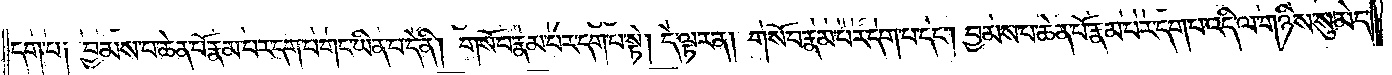དག་པ། བྱམས་པ་ཆེན་པོ་རྣམ་པར་དག་པ་གང་ཡིན་པ་དེ་ནི། གསོ་བ་རྣམ་པར་དག་པ་སྟེ། དེ་ལྟར་ན། གསོ་བ་རྣམ་པར་དག་པ་དང༌། བྱམས་པ་ཆེན་པོ་རྣམ་པར་དག་པ་འདི་ལ་གཉིས་སུ་མེད་
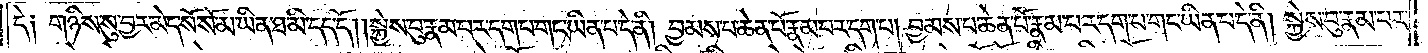དེ༑ གཉིས་སུ་བྱར་མེད་སོ་སོ་མ་ཡིན་ཐ་མི་དད་དོ། །སྐྱེས་བུ་རྣམ་པར་དག་པ་གང་ཡིན་པ་དེ་ནི། བྱམས་པ་ཆེན་པོ་རྣམ་པར་དག་པ། བྱམས་པ་ཆེན་པོ་རྣམ་པར་དག་པ་གང་ཡིན་པ་དེ་ནི། སྐྱེས་བུ་རྣམ་པར་
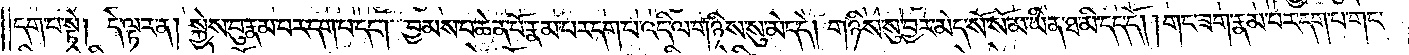དག་པ་སྟེ། དེ་ལྟར་ན། སྐྱེས་བུ་རྣམ་པར་དག་པ་དང༌། བྱམས་པ་ཆེན་པོ་རྣམ་པར་དག་པ་འདི་ལ་གཉིས་སུ་མེད་དེ། གཉིས་སུ་བྱར་མེད་སོ་སོ་མ་ཡིན་ཐ་མི་དད་དོ། །གང་ཟག་རྣམ་པར་དག་པ་གང་
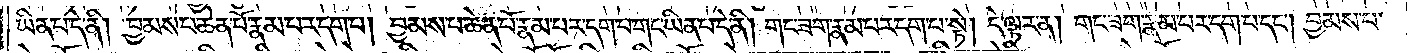ཡིན་པ་དེ་ནི། བྱམས་པ་ཆེན་པོ་རྣམ་པར་དག་པ། བྱམས་པ་ཆེན་པོ་རྣམ་པར་དག་པ་གང་ཡིན་པ་དེ་ནི། གང་ཟག་རྣམ་པར་དག་པ་སྟེ། དེ་ལྟར་ན། གང་ཟག་རྣམ་པར་དག་པ་དང༌། བྱམས་པ་
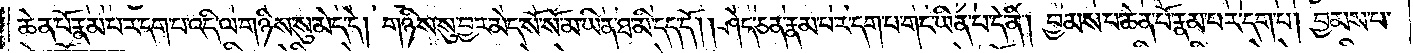ཆེན་པོ་རྣམ་པར་དག་པ་འདི་ལ་གཉིས་སུ་མེད་དེ། གཉིས་སུ་བྱར་མེད་སོ་སོ་མ་ཡིན་ཐ་མི་དད་དོ། །ཤེད་ཅན་རྣམ་པར་དག་པ་གང་ཡིན་པ་དེ་ནི། བྱམས་པ་ཆེན་པོ་རྣམ་པར་དག་པ། བྱམས་པ་
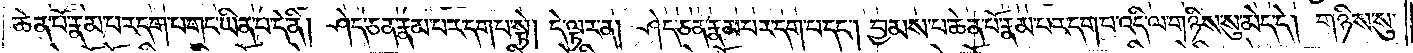ཆེན་པོ་རྣམ་པར་དག་པ་གང་ཡིན་པ་དེ་ནི། ཤེད་ཅན་རྣམ་པར་དག་པ་སྟེ། དེ་ལྟར་ན། ཤེད་ཅན་རྣམ་པར་དག་པ་དང༌། བྱམས་པ་ཆེན་པོ་རྣམ་པར་དག་པ་འདི་ལ་གཉིས་སུ་མེད་དེ། གཉིས་སུ་
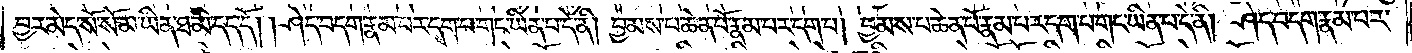བྱར་མེད་སོ་སོ་མ་ཡིན་ཐ་མི་དད་དོ། །ཤེད་བདག་རྣམ་པར་དག་པ་གང་ཡིན་པ་དེ་ནི། བྱམས་པ་ཆེན་པོ་རྣམ་པར་དག་པ། བྱམས་པ་ཆེན་པོ་རྣམ་པར་དག་པ་གང་ཡིན་པ་དེ་ནི། ཤེད་བདག་རྣམ་པར་
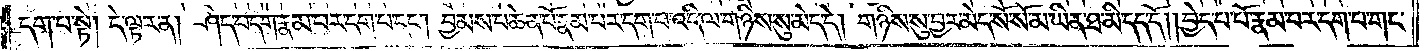དག་པ་སྟེ། དེ་ལྟར་ན། ཤེད་བདག་རྣམ་པར་དག་པ་དང༌། བྱམས་པ་ཆེན་པོ་རྣམ་པར་དག་པ་འདི་ལ་གཉིས་སུ་མེད་དེ། གཉིས་སུ་བྱར་མེད་སོ་སོ་མ་ཡིན་ཐ་མི་དད་དོ། །བྱེད་པ་པོ་རྣམ་པར་དག་པ་གང་
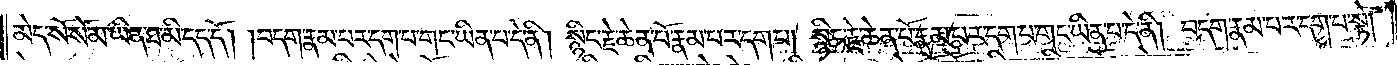མེད་སོ་སོ་མ་ཡིན་ཐ་མི་དད་དོ། །བདག་རྣམ་པར་དག་པ་གང་ཡིན་པ་དེ་ནི། སྙིང་རྗེ་ཆེན་པོ་རྣམ་པར་དག་པ། སྙིང་རྗེ་ཆེན་པོ་རྣམ་པར་དག་པ་གང་ཡིན་པ་དེ་ནི། བདག་རྣམ་པར་དག་པ་སྟེ།
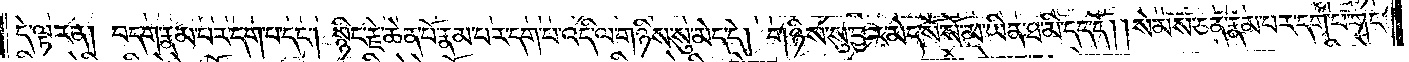དེ་ལྟར་ན། བདག་རྣམ་པར་དག་པ་དང༌། སྙིང་རྗེ་ཆེན་པོ་རྣམ་པར་དག་པ་འདི་ལ་གཉིས་སུ་མེད་དེ། གཉིས་སུ་བྱར་མེད་སོ་སོ་མ་ཡིན་ཐ་མི་དད་དོ། །སེམས་ཅན་རྣམ་པར་དག་པ་གང་
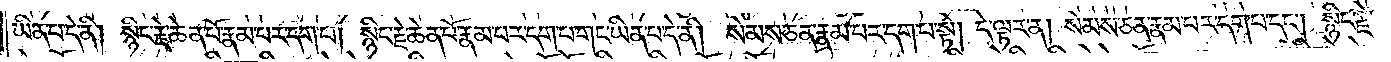ཡིན་པ་དེ་ནི། སྙིང་རྗེ་ཆེན་པོ་རྣམ་པར་དག་པ། སྙིང་རྗེ་ཆེན་པོ་རྣམ་པར་དག་པ་གང་ཡིན་པ་དེ་ནི། སེམས་ཅན་རྣམ་པར་དག་པ་སྟེ། དེ་ལྟར་ན། སེམས་ཅན་རྣམ་པར་དག་པ་དང༌། སྙིང་རྗེ་
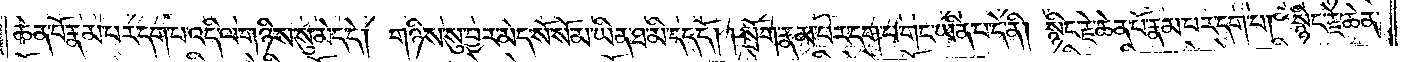ཆེན་པོ་རྣམ་པར་དག་པ་འདི་ལ་གཉིས་སུ་མེད་དེ། གཉིས་སུ་བྱར་མེད་སོ་སོ་མ་ཡིན་ཐ་མི་དད་དོ། །སྲོག་རྣམ་པར་དག་པ་གང་ཡིན་པ་དེ་ནི། སྙིང་རྗེ་ཆེན་པོ་རྣམ་པར་དག་པ། སྙིང་རྗེ་ཆེན་
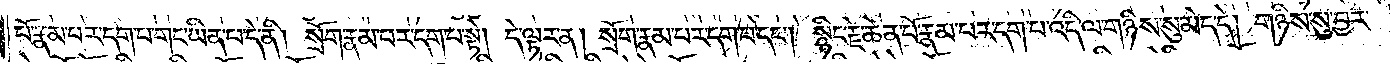པོ་རྣམ་པར་དག་པ་གང་ཡིན་པ་དེ་ནི། སྲོག་རྣམ་པར་དག་པ་སྟེ། དེ་ལྟར་ན། སྲོག་རྣམ་པར་དག་པ་དང༌། སྙིང་རྗེ་ཆེན་པོ་རྣམ་པར་དག་པ་འདི་ལ་གཉིས་སུ་མེད་དེ། གཉིས་སུ་བྱར་
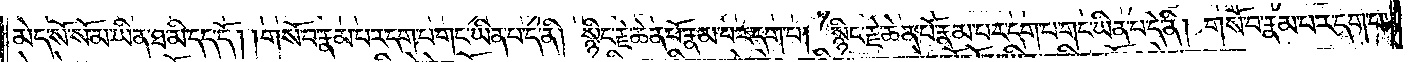མེད་སོ་སོ་མ་ཡིན་ཐ་མི་དད་དོ། །གསོ་བ་རྣམ་པར་དག་པ་གང་ཡིན་པ་དེ་ནི། སྙིང་རྗེ་ཆེན་པོ་རྣམ་པར་དག་པ། སྙིང་རྗེ་ཆེན་པོ་རྣམ་པར་དག་པ་གང་ཡིན་པ་དེ་ནི། གསོ་བ་རྣམ་པར་དག་པ་
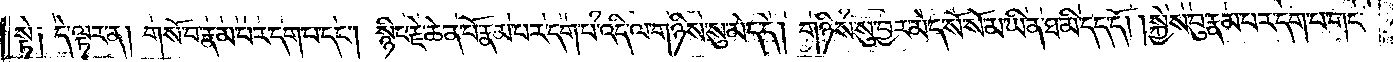སྟེ༑ དེ་ལྟར་ན། གསོ་བ་རྣམ་པར་དག་པ་དང༌། སྙིང་རྗེ་ཆེན་པོ་རྣམ་པར་དག་པ་འདི་ལ་གཉིས་སུ་མེད་དེ། གཉིས་སུ་བྱར་མེད་སོ་སོ་མ་ཡིན་ཐ་མི་དད་དོ། །སྐྱེས་བུ་རྣམ་པར་དག་པ་གང་
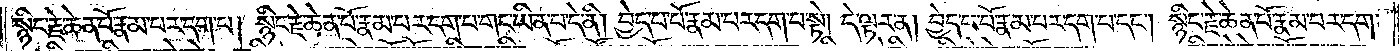སྙིང་རྗེ་ཆེན་པོ་རྣམ་པར་དག་པ། སྙིང་རྗེ་ཆེན་པོ་རྣམ་པར་དག་པ་གང་ཡིན་པ་དེ་ནི། བྱེད་པ་པོ་རྣམ་པར་དག་པ་སྟེ། དེ་ལྟར་ན། བྱེད་པ་པོ་རྣམ་པར་དག་པ་དང༌། སྙིང་རྗེ་ཆེན་པོ་རྣམ་པར་དག་
